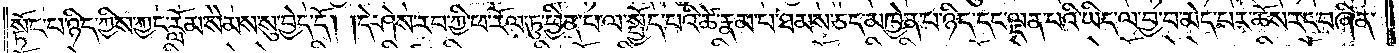སྟོང་པ་ཉིད་ཀྱིས་ཀྱང་རློམ་སེམས་སུ་བྱེད་དོ། །དེ་ཤེས་རབ་ཀྱི་ཕ་རོལ་ཏུ་ཕྱིན་པ་ལ་སྤྱོད་པའི་ཚེ་རྣམ་པ་ཐམས་ཅད་མཁྱེན་པ་ཉིད་དང་ལྡན་པའི་ཡིད་ལ་བྱ་བ་མེད་པར་ཆོས་རང་བཞིན་
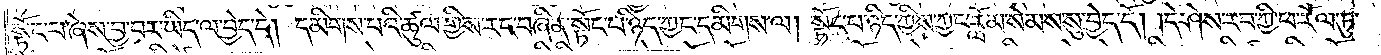སྟོང་པ་ཞེས་བྱ་བར་ཡིད་ལ་བྱེད་དེ། དམིགས་པའི་ཚུལ་གྱིས་རང་བཞིན་སྟོང་པ་ཉིད་ཀྱང་དམིགས་ལ། སྟོང་པ་ཉིད་ཀྱིས་ཀྱང་རློམ་སེམས་སུ་བྱེད་དོ། །དེ་ཤེས་རབ་ཀྱི་ཕ་རོལ་ཏུ་
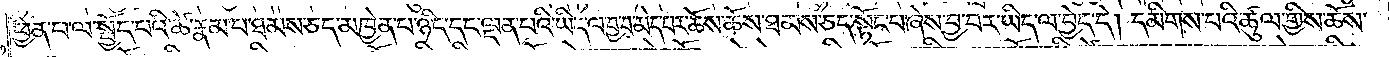ཕྱིན་པ་ལ་སྤྱོད་པའི་ཚེ་རྣམ་པ་ཐམས་ཅད་མཁྱེན་པ་ཉིད་དང་ལྡན་པའི་ཡིད་ལ་བྱ་བ་མེད་པར་ཆོས་ཆོས་ཐམས་ཅད་སྟོང་པ་ཞེས་བྱ་བར་ཡིད་ལ་བྱེད་དེ། དམིགས་པའི་ཚུལ་གྱིས་ཆོས་
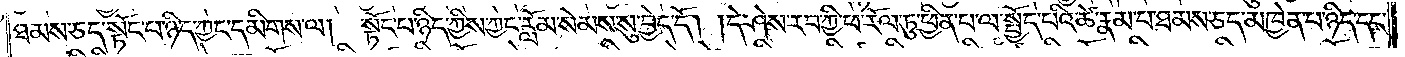ཐམས་ཅད་སྟོང་པ་ཉིད་ཀྱང་དམིགས་ལ། སྟོང་པ་ཉིད་ཀྱིས་ཀྱང་རློམ་སེམས་སུ་བྱེད་དོ། །དེ་ཤེས་རབ་ཀྱི་ཕ་རོལ་ཏུ་ཕྱིན་པ་ལ་སྤྱོད་པའི་ཚེ་རྣམ་པ་ཐམས་ཅད་མཁྱེན་པ་ཉིད་དང་
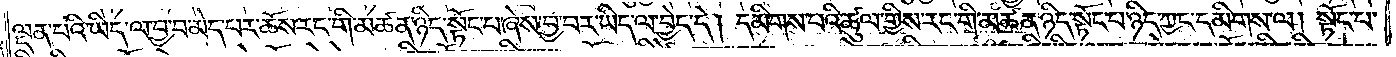ལྡན་པའི་ཡིད་ལ་བྱ་བ་མེད་པར་ཆོས་རང་གི་མཚན་ཉིད་སྟོང་པ་ཞེས་བྱ་བར་ཡིད་ལ་བྱེད་དེ། དམིགས་པའི་ཚུལ་གྱིས་རང་གི་མཚན་ཉིད་སྟོང་པ་ཉིད་ཀྱང་དམིགས་ལ། སྟོང་པ་
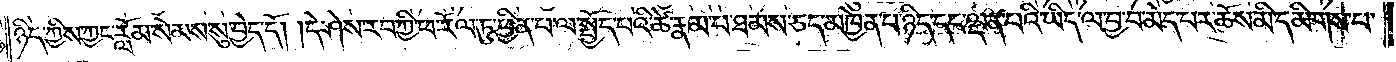ཉིད་ཀྱིས་ཀྱང་རློམ་སེམས་སུ་བྱེད་དོ། །དེ་ཤེས་རབ་ཀྱི་ཕ་རོལ་ཏུ་ཕྱིན་པ་ལ་སྤྱོད་པའི་ཚེ་རྣམ་པ་ཐམས་ཅད་མཁྱེན་པ་ཉིད་དང་ལྡན་པའི་ཡིད་ལ་བྱ་བ་མེད་པར་ཆོས་མི་དམིགས་པ་
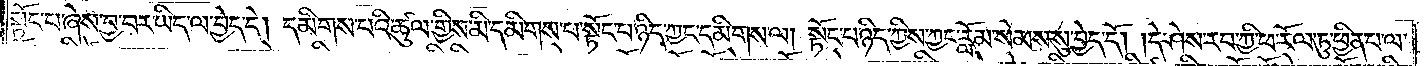སྟོང་པ་ཞེས་བྱ་བར་ཡིད་ལ་བྱེད་དེ། དམིགས་པའི་ཚུལ་གྱིས་མི་དམིགས་པ་སྟོང་པ་ཉིད་ཀྱང་དམིགས་ལ། སྟོང་པ་ཉིད་ཀྱིས་ཀྱང་རློམ་སེམས་སུ་བྱེད་དོ། །དེ་ཤེས་རབ་ཀྱི་ཕ་རོལ་ཏུ་ཕྱིན་པ་ལ་
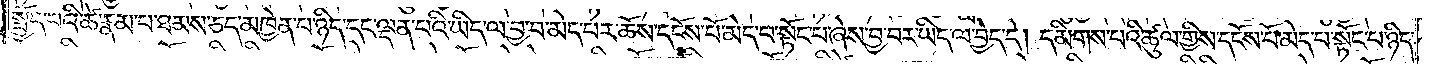སྤྱོད་པའི་ཚེ་རྣམ་པ་ཐམས་ཅད་མཁྱེན་པ་ཉིད་དང་ལྡན་པའི་ཡིད་ལ་བྱ་བ་མེད་པར་ཆོས་དངོས་པོ་མེད་པ་སྟོང་པ་ཞེས་བྱ་བར་ཡིད་ལ་བྱེད་དེ། དམིགས་པའི་ཚུལ་གྱིས་དངོས་པོ་མེད་པ་སྟོང་པ་ཉིད་
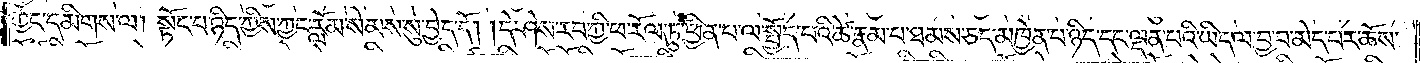ཀྱང་དམིགས་ལ། སྟོང་པ་ཉིད་ཀྱིས་ཀྱང་རློམ་སེམས་སུ་བྱེད་དོ། །དེ་ཤེས་རབ་ཀྱི་ཕ་རོལ་ཏུ་ཕྱིན་པ་ལ་སྤྱོད་པའི་ཚེ་རྣམ་པ་ཐམས་ཅད་མཁྱེན་པ་ཉིད་དང་ལྡན་པའི་ཡིད་ལ་བྱ་བ་མེད་པར་ཆོས་
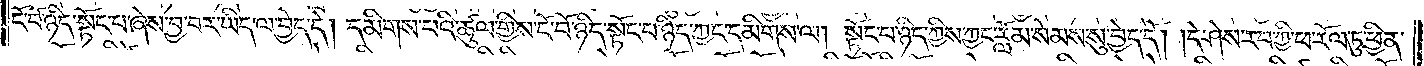ངོ་བོ་ཉིད་སྟོང་པ་ཞེས་བྱ་བར་ཡིད་ལ་བྱེད་དེ། དམིགས་པའི་ཚུལ་གྱིས་ངོ་བོ་ཉིད་སྟོང་པ་ཉིད་ཀྱང་དམིགས་ལ། སྟོང་པ་ཉིད་ཀྱིས་ཀྱང་རློམ་སེམས་སུ་བྱེད་དོ། །དེ་ཤེས་རབ་ཀྱི་ཕ་རོལ་ཏུ་ཕྱིན་
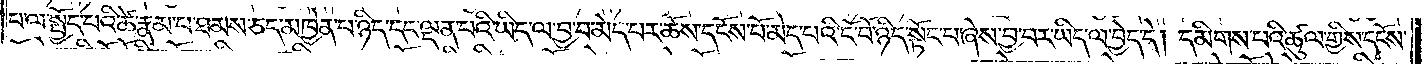པ་ལ་སྤྱོད་པའི་ཚེ་རྣམ་པ་ཐམས་ཅད་མཁྱེན་པས་ཉིད་དང་ལྡན་པའི་ཡིད་ལ་བྱ་བ་མེད་པར་ཆོས་དངོས་པོ་མེད་པའི་ངོ་བོ་ཉིད་སྟོང་པ་ཞེས་བྱ་བར་ཡིད་ལ་བྱེད་དེ། དམིགས་པའི་ཚུལ་གྱིས་དངོས་
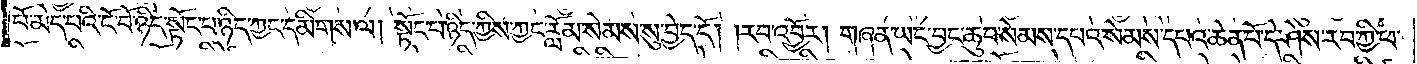པོ་མེད་པའི་ངོ་བོ་ཉིད་སྟོང་པ་ཉིད་ཀྱང་དམིགས་ལ། སྟོང་པ་ཉིད་ཀྱིས་ཀྱང་རློམ་སེམས་སུ་བྱེད་དོ། །རབ་འབྱོར། གཞན་ཡང་བྱང་ཆུབ་སེམས་དཔའ་སེམས་དཔའ་ཆེན་པོ་དེ་ཤེས་རབ་ཀྱི་ཕ་
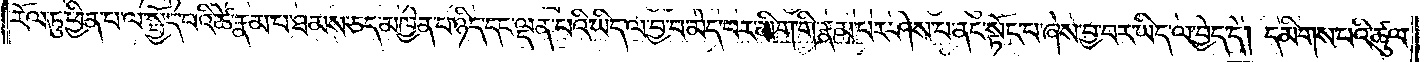རོལ་ཏུ་ཕྱིན་པ་ལ་སྤྱོད་པའི་ཚེ་རྣམ་པ་ཐམས་ཅད་མཁྱེན་པ་ཉིད་དང་ལྡན་པའི་ཡིད་ལ་བྱ་བ་མེད་པར་མིག་གི་རྣམ་པར་ཤེས་པ་ནང་སྟོང་པ་ཞེས་བྱ་བར་ཡིད་ལ་བྱེད་དེ། དམིགས་པའི་ཚུལ་
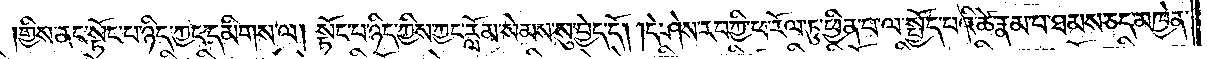གྱིས་ནང་སྟོང་པ་ཉིད་ཀྱང་དམིགས་ལ། སྟོང་པ་ཉིད་ཀྱིས་ཀྱང་རློམ་སེམས་སུ་བྱེད་དོ། །དེ་ཤེས་རབ་ཀྱི་ཕ་རོལ་ཏུ་ཕྱིན་པ་ལ་སྤྱོད་པའི་ཚེ་རྣམ་པ་ཐམས་ཅད་མཁྱེན་
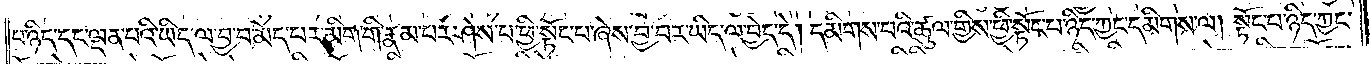པ་ཉིད་དང་ལྡན་པའི་ཡིད་ལ་བྱ་བ་མེད་པར་མིག་གི་རྣམ་པར་ཤེས་པ་ཕྱི་སྟོང་པ་ཞེས་བྱ་བར་ཡིད་ལ་བྱེད་དེ། དམིགས་པའི་ཚུལ་གྱིས་ཕྱི་སྟོང་པ་ཉིད་ཀྱང་དམིགས་ལ། སྟོང་པ་ཉིད་ཀྱང་
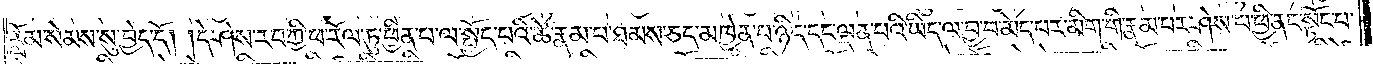རློམ་སེམས་སུ་བྱེད་དོ། །དེ་ཤེས་རབ་ཀྱི་ཕ་རོལ་ཏུ་ཕྱིན་པ་ལ་སྤྱོད་པའི་ཚེ་རྣམ་པ་ཐམས་ཅད་མཁྱེན་པ་ཉིད་དང་ལྡན་པའི་ཡིད་ལ་བྱ་བ་མེད་པར་མིག་གི་རྣམ་པར་ཤེས་པ་ཕྱི་ནང་སྟོང་པ་
